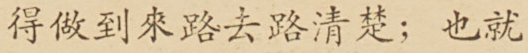得做到來路去路清楚，也就
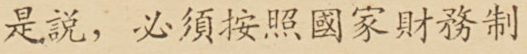是說，必須按照國家財務制
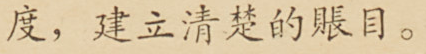度，建立清楚的賬目。
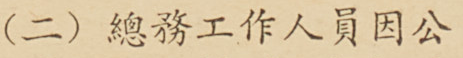（二）總務工作人員因公
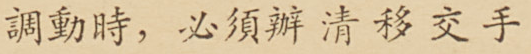調動時，必須辦清移交手
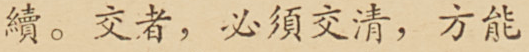續。交者，必須交清，方能
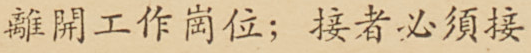離開工作崗位；接者必須接
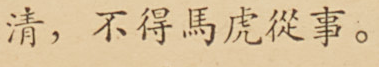清，不得馬虎從事。
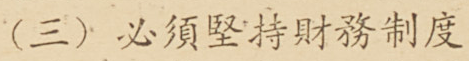（三）必須堅持財務制度
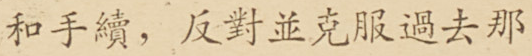和手續，反對並克服過去那
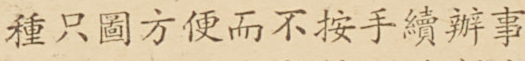種只圖方便而不按手續辦事
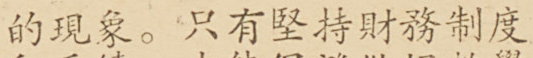的現象。只有堅持財務制度
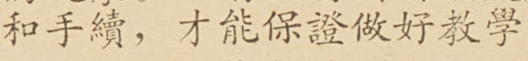和手續，才能保證做好教學
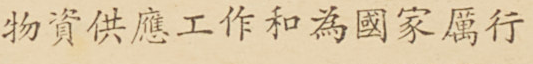物資供應工作和為國家厲行
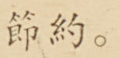節約。
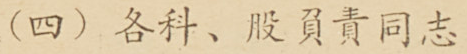（四）各科、股負責同志
